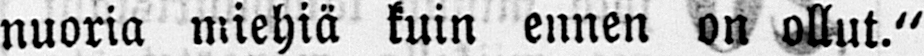nuoria miehiä kuin ennen on ollut."
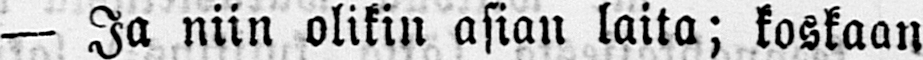— Ja niin olikin asian laita; koskaan
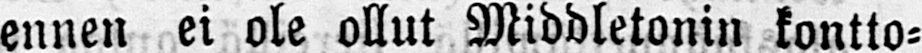ennen ei ole ollut Middletonin kontto-
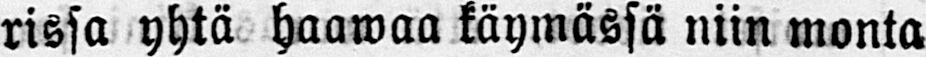rissa yhtä haawaa käymässä niin monta
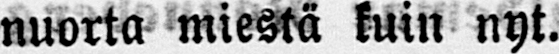nuorta miestä kuin nyt.
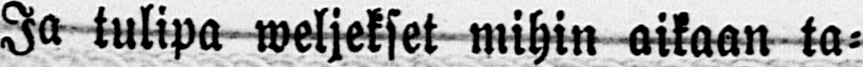Ja tulipa weljekset mihin aikaan ta-
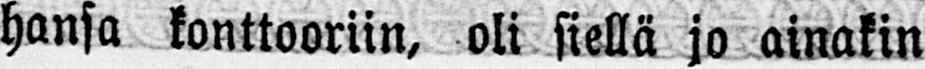hansa konttooriin, oli siellä jo ainakin
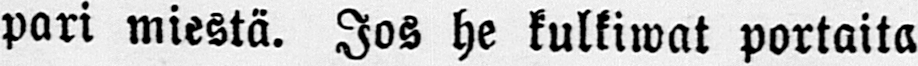pari miestä. Jos he kulkiwat portaita
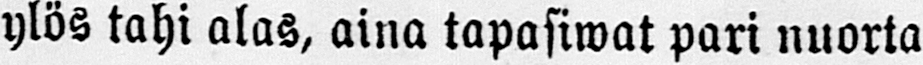ylös tahi alas, aina tapasiwat pari nuorta
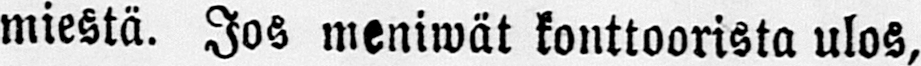miestä. Jos meniwät konttoorista ulos,
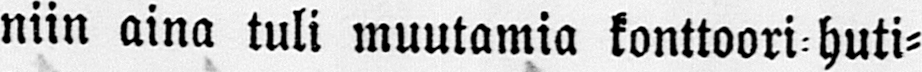niin aina tuli muutamia konttoori-huti-
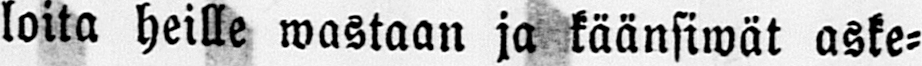loita heille wastaan ja käänsiwät aske-
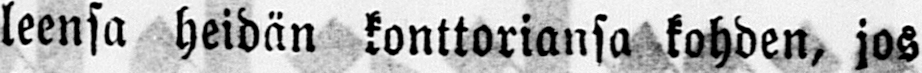leensa heidän konttoriansa kohden, jos
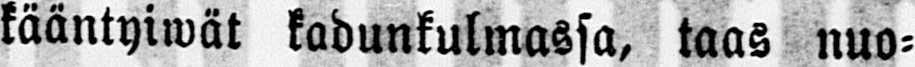kääntyiwät kadunkulmassa, taas nuo-
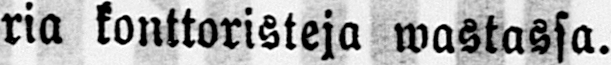ria konttoristeja wastassa.
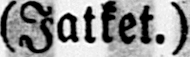(Jatket.)
